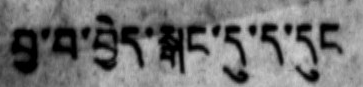བྱ་བ་བྱེད་སྒང་དུ་ད་དུང
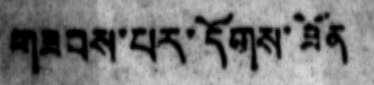གཟབས་པར་དོགས་ཟོན
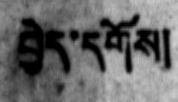བྱེད་དགོས།
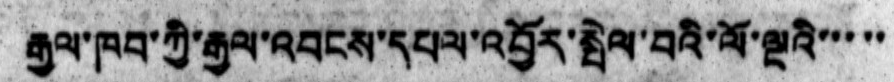རྒྱལ་ཁབ་ཀྱི་རྒྱལ་འབངས་དཔལ་འབྱོར་སྤེལ་བའི་ལོ་ལྔའི་་་་་
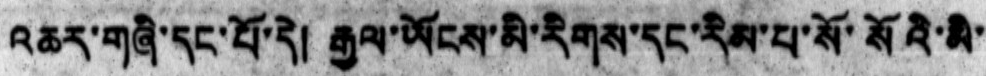འཆར་གཞི་དང་པོ་དེ། རྒྱལ་ཡོངས་མི་རིགས་དང་རིམ་པ་སོ་སོའི་མི་
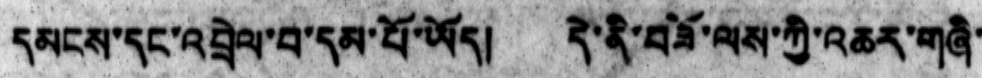དམངས་དང་འབྲེལ་བ་དམ་པོ་ཡོད། དེ་ནི་བཟོ་ལས་ཀྱི་འཆར་གཞི་
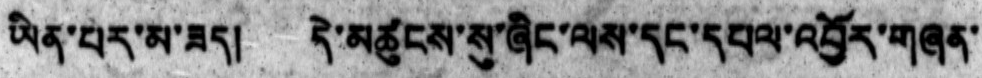ཡིན་པར་མ་ཟད། དེ་མཚུངས་སུ་ཞིང་ལས་དང་དཔལ་འབྱོར་གཞན་
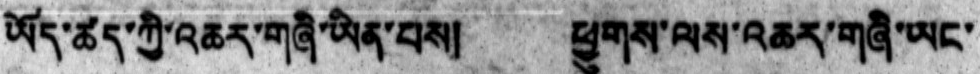ཡོད་ཚད་ཀྱི་འཆར་གཞི་ཡིན་པས། ཕྱུགས་ལས་འཆར་གཞི་ཡང་
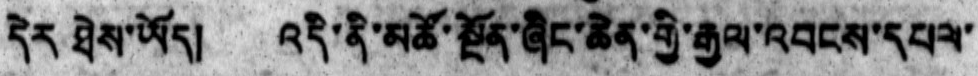དེར ཐེས་ཡོད། འདི་ནི་མཚོ་སྔོན་ཞིང་ཆེན་གྱི་རྒྱལ་འབངས་དཔལ་
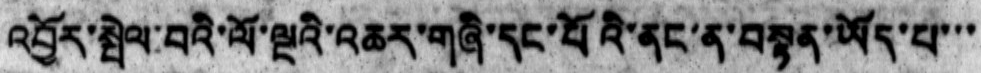འབྱོར་སྤེལ་བའི་ལོ་ལྔའི་འཆར་གཞི་དང་པོའི་ནང་ན་བསྟན་ཡོད་པ་་་
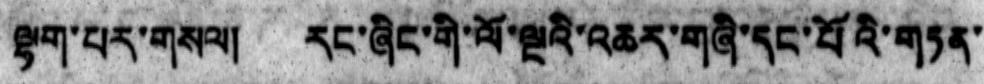ལྷག་པར་གསལ། རང་ཞིང་གི་ལོ་ལྔའི་འཆར་གཞི་དང་པོའི་གཏན་
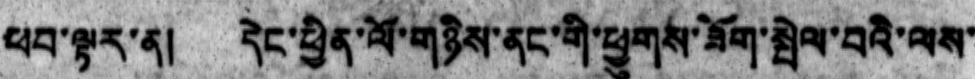ཕབ་ལྟར་ན། དེང་ཕྱིན་ལོ་གཉིས་ནང་གི་ཕྱུགས་ཟོག་སྤེལ་བའི་ལས་
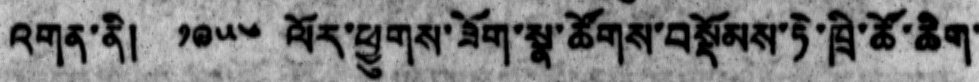འགན་ནི། ༡༩༥༦ ལོར་ཕྱུགས་ཟོག་སྣ་ཚོགས་བསྡོམས་ཏེ་ཁྲི་ཚོ་ཆིག་
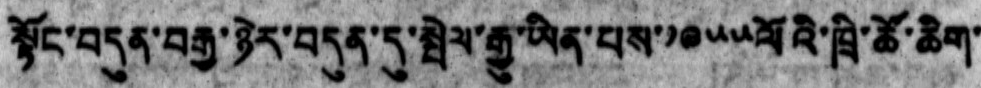སྟོང་བདུན་བརྒྱ་ཉེར་བདུན་དུ་སྤེལ་རྒྱུ་ཡིན་པས་༡༩༥༥ལོའི་ཁྲི་ཚོ་ཆིག་
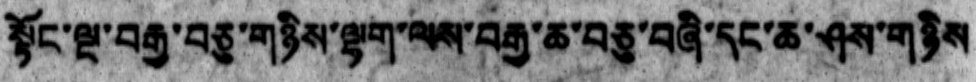སྟོང་ལྔ་བརྒྱ་བཅུ་གཉིས་ལྷག་ལས་བརྒྱ་ཆ་བཅུ་བཞི་དང་ཆ་ཤས་གཉིས
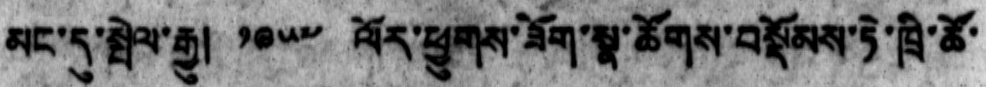མང་དུ་སྤེལ་རྒྱུ། ༡༩༥༧ ལོར་ཕྱུགས་ཟོག་སྣ་ཚོགས་བསྡོམས་ཏེ་ཁྲི་ཚོ་
